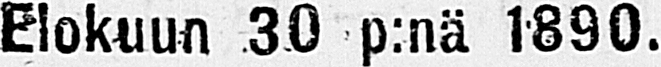Elokuun 30 p:nä 1890.
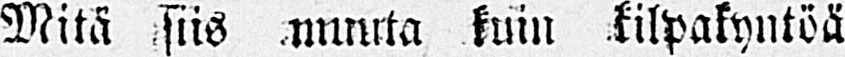Mitä siis nnnrta kuin kilpakyntöä
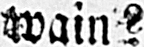wain?
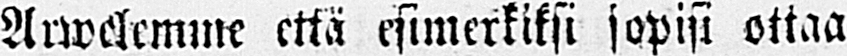Arwelemme että esimerkiksi sopisi ottaa
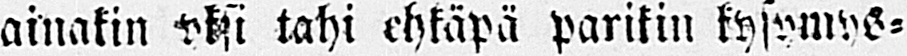ainakin yksi tahi ehkäpä parikin kysymys-
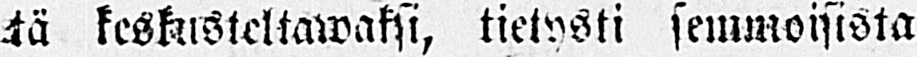tä keskusteltawaksi, tietysti semmoisista
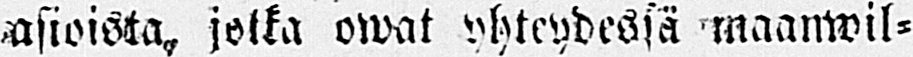asioista, jotka owat yhteydessä maanwil-
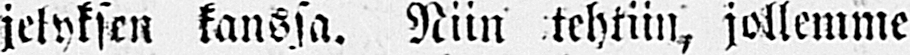jelyksen kanssa. Niin tehtiin, jollemme
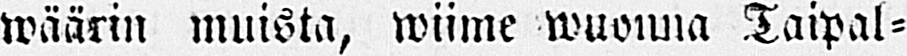wäärin muista, wiime wuonna Taipal-
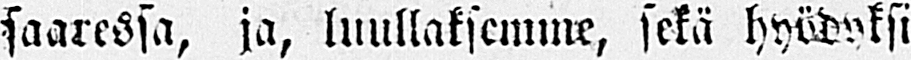saaressa, ja, luullaksemme, sekä hyödyksi
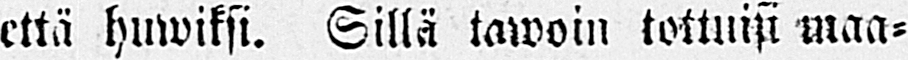että huwiksi. Sillä tawoin tottuisi maa-
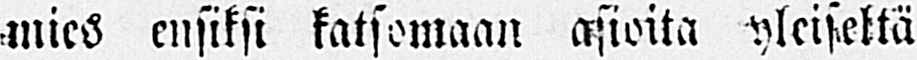mies ensiksi katsomaan asioita yleiseltä
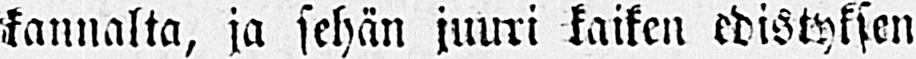kannalta, ja sehän juuri kaiken edistyksen
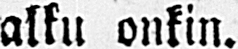alku onkin.
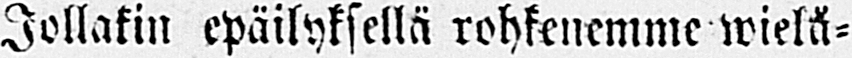Jollakin epäilyksellä rohkenemme wielä-
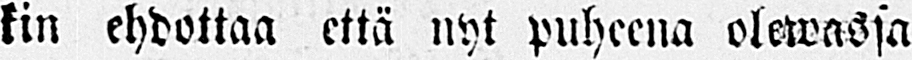kin ehdottaa että nyt puheena olewassa
